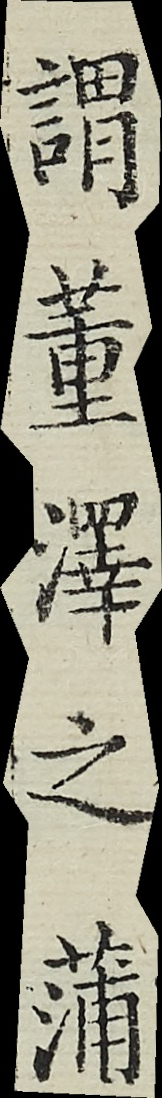謂董澤之蒲
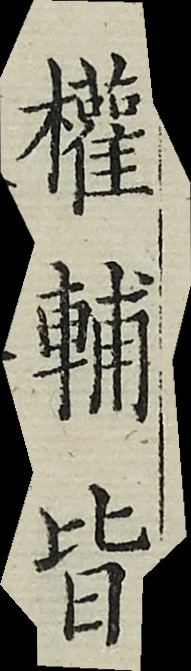權輔皆
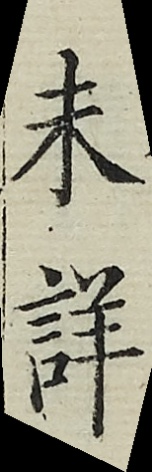未詳
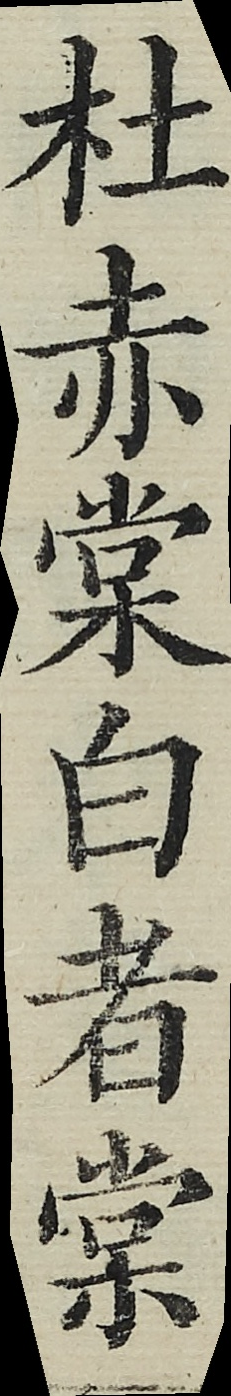杜赤棠白者棠
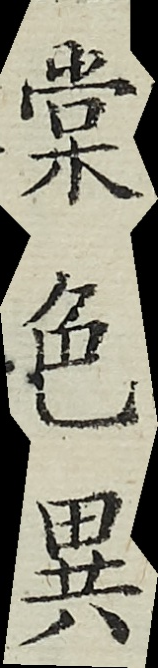棠色異
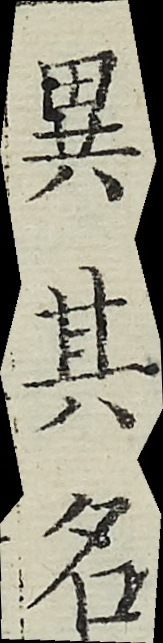異其名
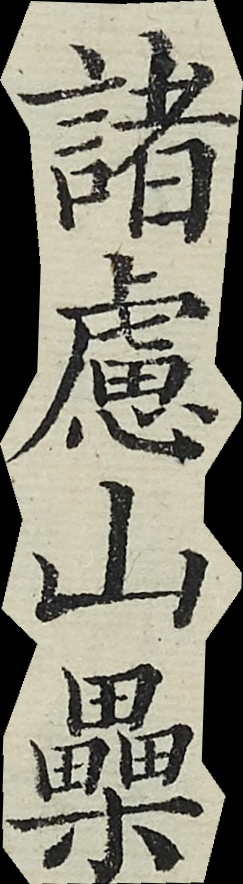諸慮山櫐
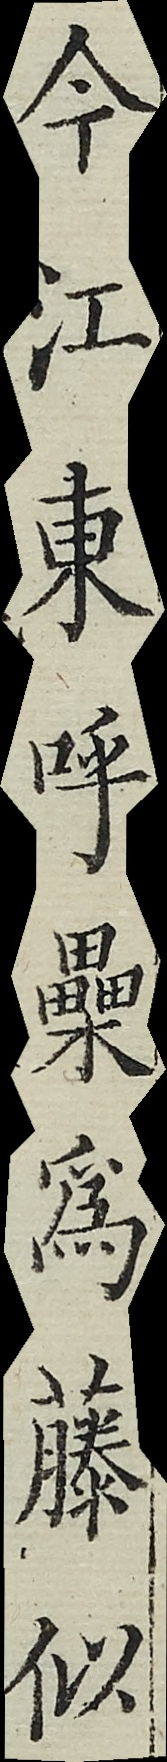今江東呼櫐為籐似
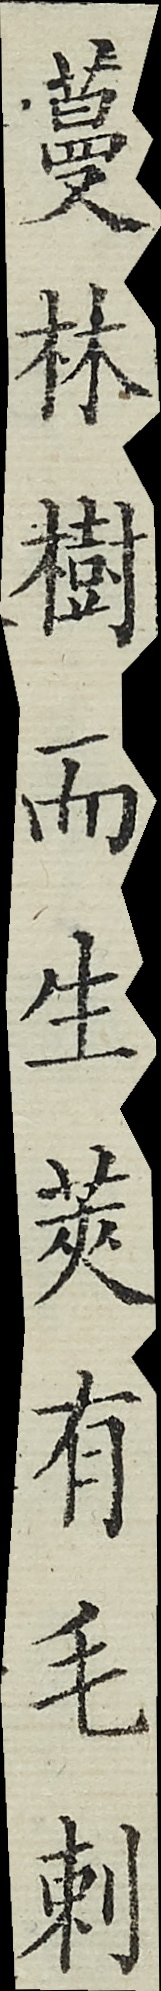蔓林樹而生莢有毛刺
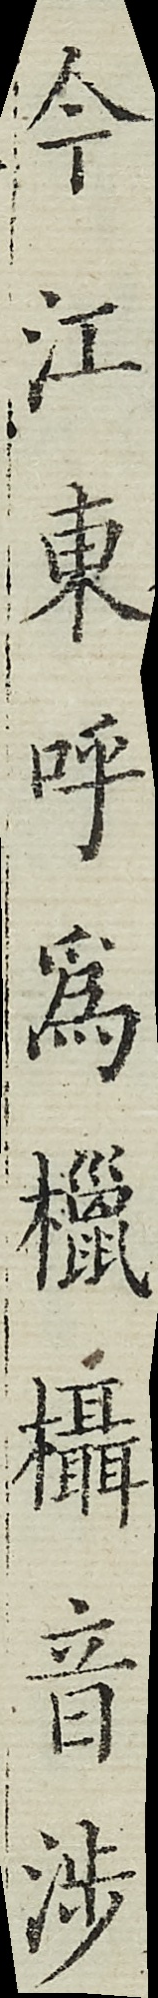今江東呼為㯿欇音涉
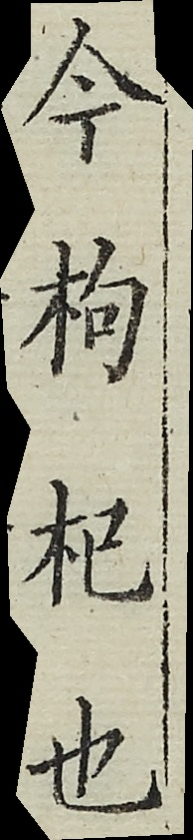今枸杞也
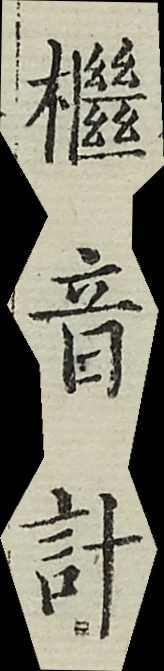檵音計
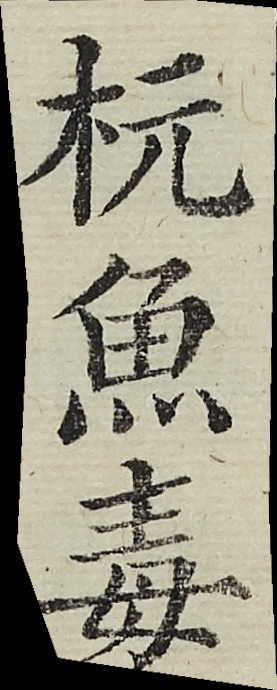杬魚毒
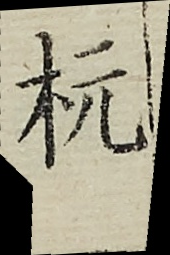杬
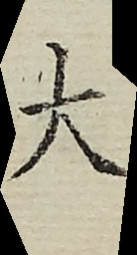大
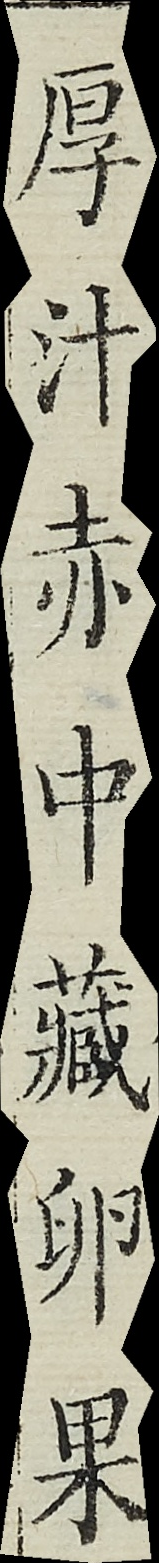厚汁赤中藏卵果
